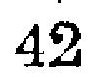42
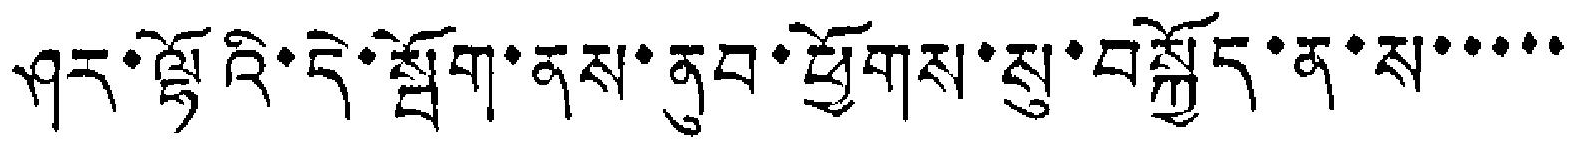ཤར་ལྷོའི་དེ་སྦོག་ནས་ནུབ་ཕྱོགས་སུ་བསྐྱོད་ན་ས་་་་་
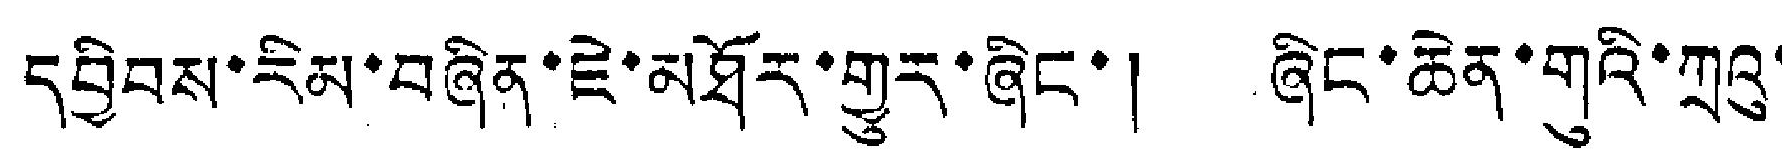དབྱིབས་རིམ་བཞིན་ཇེ་མཐོར་གྱུར་ཞིང་། ཞིང་ཆེན་གུའི་ཀྲའུ་
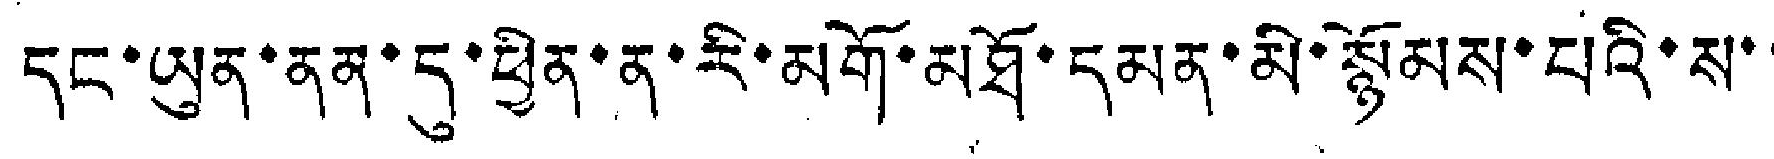དང་ཡུན་ནན་དུ་ཕྱིན་ན་རི་མགོ་མཐོ་དམན་མི་སྙོམས་པའི་ས་་
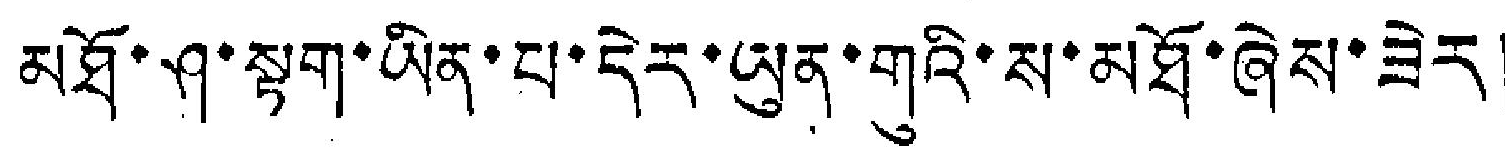མཐོ་ཤ་སྟག་ཡིན་པ་དེར་ཡུན་གུའི་ས་མཐོ་ཞེས་ཟེར།
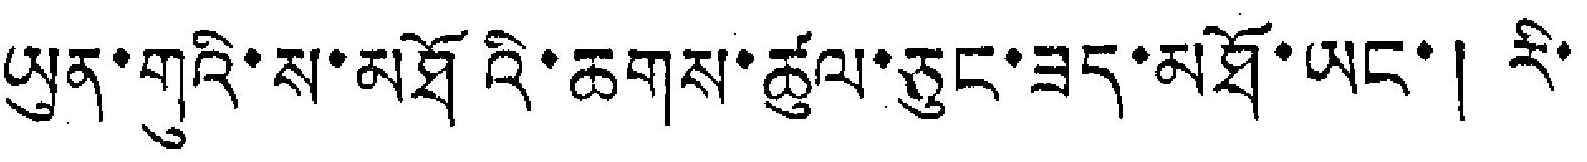ཡུན་གུའི་ས་མཐོའི་ཆགས་ཚུལ་ཅུང་ཟད་མཐོ་ཡང་། རི་
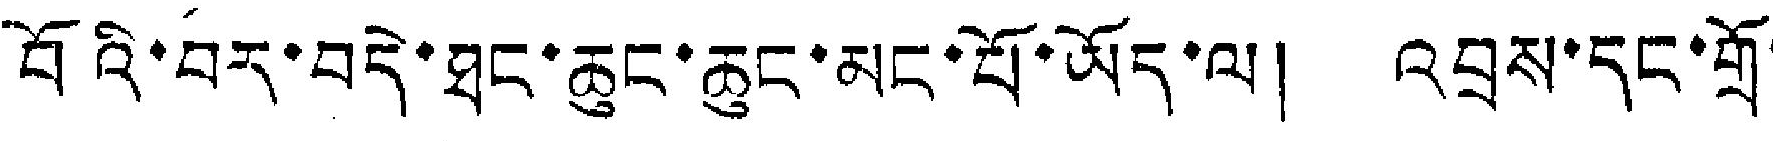བོའི་བར་བདེ་ཐང་ཆུང་ཆུང་མང་པོ་ཡོད་ལ། འབྲས་དང་གྲོ་
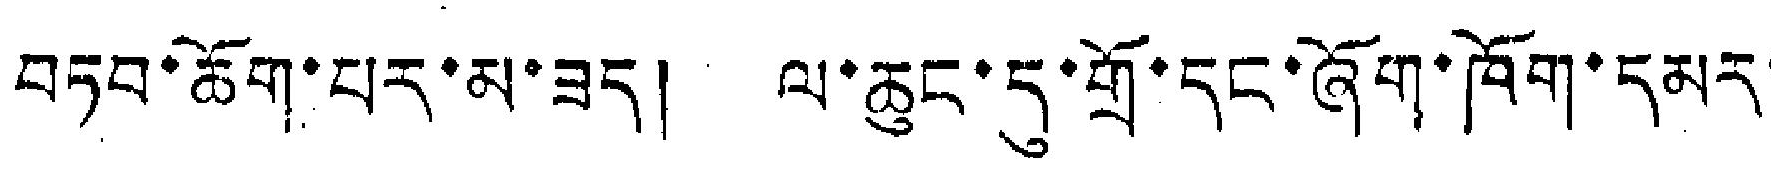བཏབ་ཆོག་པར་མ་ཟད། ལ་ཆུང་དུ་གྲོ་དང་ཞོག་ཁོག་དམར་
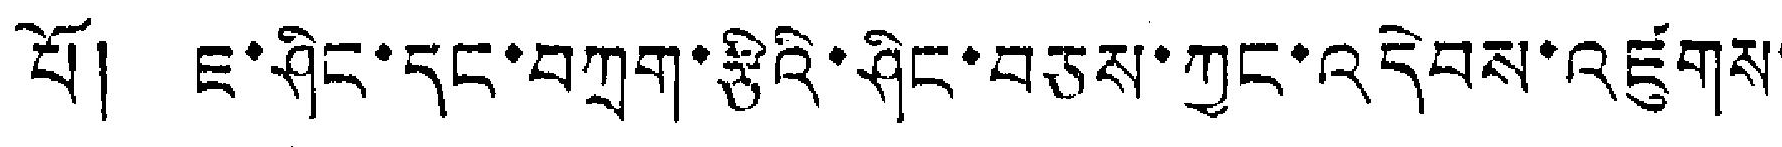པོ། ཇ་ཤིང་དང་བཀྲག་རྩིའི་ཤིང་བཅས་ཀྱང་འདེབས་འཛུགས་
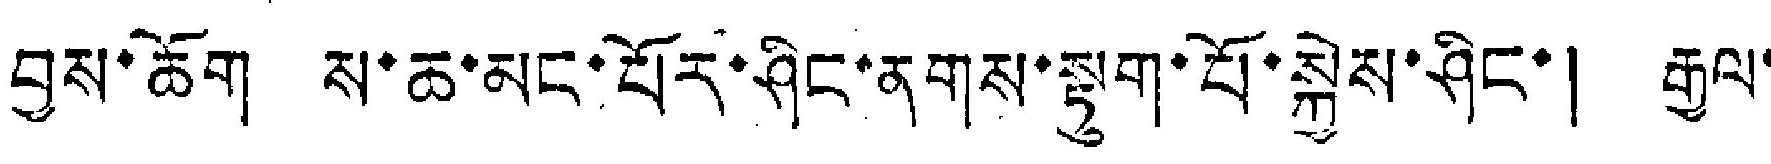བྱས་ཆོག ས་ཆ་མང་པོར་ཤིང་ནགས་སྟག་པོ་སྐྱེས་ཤིང་། རྒྱལ་
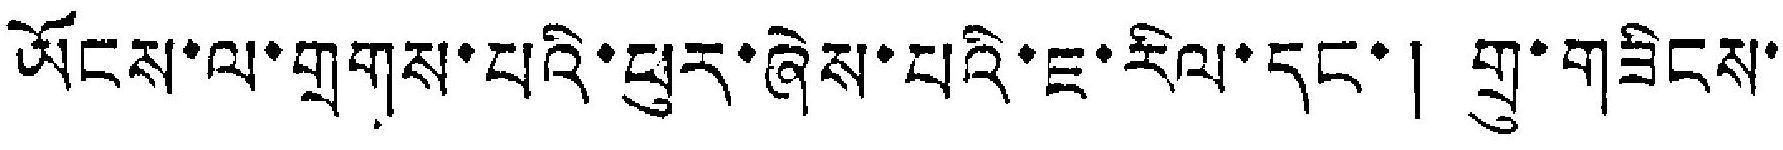ཡོངས་ལ་གྲགས་པའི་ཕུར་ཞེས་པའི་ཇ་རིལ་དང་། གྲུ་གཟིངས་
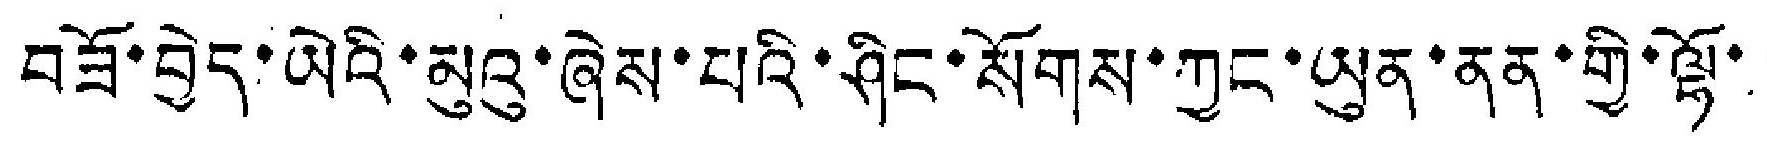བཟོ་བྱེད་ཡེའི་མུའུ་ཞེས་པའི་ཤིང་སོགས་ཀྱང་ཡུན་ནན་གྱི་ལྷོ་
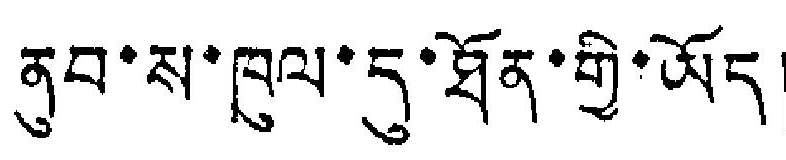ནུབ་ས་ཁུལ་དུ་ཐོན་གྱི་ཡོད།
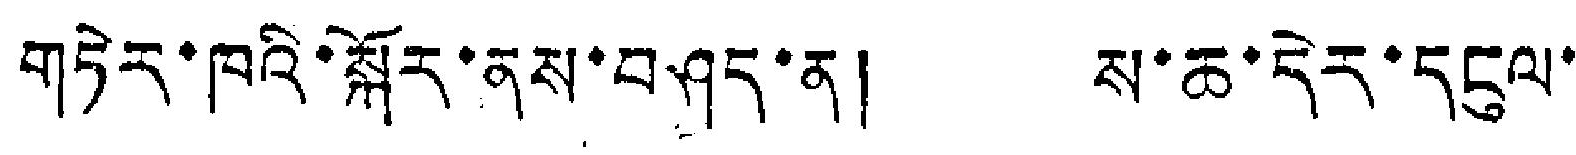གཏེར་ཁའི་སྐོར་ནས་བཤད་ན། ས་ཆ་དེར་དངུལ་
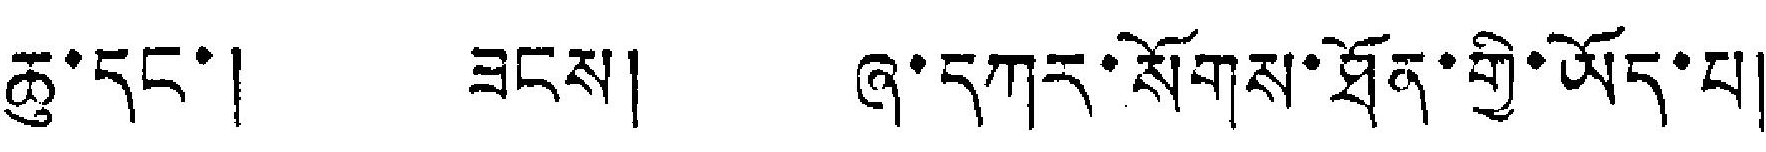ཆུ་དང་། ཟངས། ཞ་དཀར་སོགས་ཐོན་གྱི་ཡོད་པ།
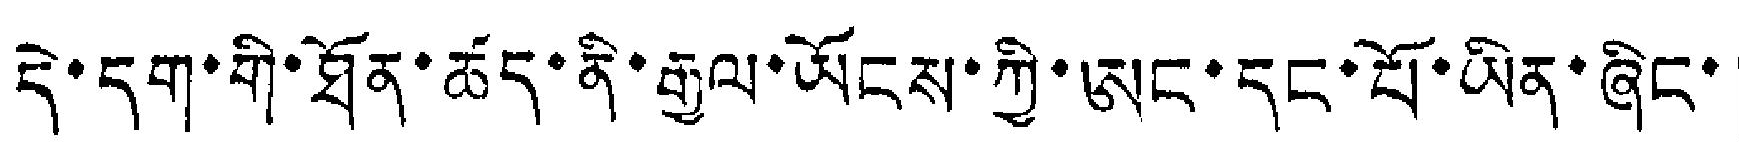དེ་དག་གི་ཐོན་ཚད་ནི་རྒྱལ་ཡོངས་ཀྱི་ཨང་དང་པོ་ཡིན་ཞིང་།
